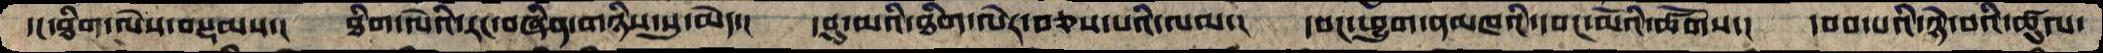དང་ཐིག་ལེས་བསྡམས་།   ཐིག་ལེའི་རང་བཞིན་གཉིས་སུ་མེད་།   དབུ་མའི་ཐིག་ལེར་བཅས་པའི་ལམ་།   དབང་ཕྱུག་ནམཁའི་དབང་མོའི་ཚོགས་།   དབབ་པའི་ཉེ་བའི་ཚུལ་
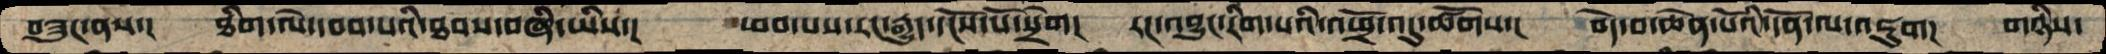བཟུང་ནས་།  ཐིག་ལེ་དབབ་པའི་ཐབས་བཞི་ཡིས་།   ཕབ་པས་རང་རྒྱུད་དངོས་པོ་སྲེག།   རང་འབྱུང་རིག་པའི་འཕྲོ་འདུ་ཚོགས་།   བདེ་བ་ཆེན་པོའི་དོན་ལ་འཇུག།   གཉིས་
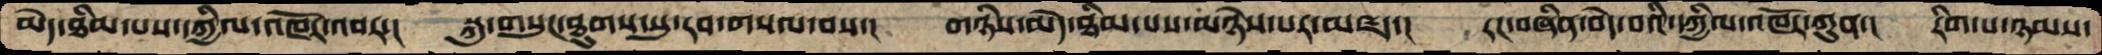མེད་ཐིམ་པས་དཀྱིལ་འཁོར་འབར་།  སྐུ་གསུང་ཐུགས་སུ་རབ་གསལ་བས་།  གཉིས་མེད་ཐིམ་པས་མཉེས་པར་མཛད་།  རང་བཞིན་མེད་པའི་དཀྱིལ་འཁོར་ཀུན་།  རིག་པ་ཉམས་
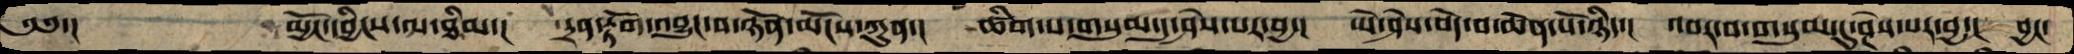༄༅་།      མྱོང་དབྱིངས་ལ་ཐིམ་།  དྲན་རྟོག་འབྱུང་བ་ཉོན་མོངས་ཀུན་།  ཚིག་པ་གསུམ་དུ་ཤེས་པར་བྱ་།  ཡེ་ཤེས་བདེ་བ་ཆེན་པོ་ཉིད་།  འབར་བ་གསུམ་དུ་ཤེས་པར་བྱ་།  བྱང་
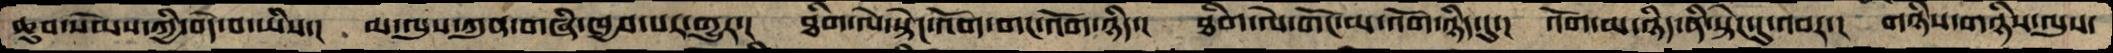ཆུབ་སེམས་ཀྱི་བདེ་བ་ཡིས་།  མ་ལུས་ཀུན་གཞི་ཁྱབ་པར་གྱུར་།  ཐིག་ལེ་སྟེང་འོག་གང་འོག་ཉིད་།  ཐིག་ལེ་གོང་མ་འོག་ཉིད་དུ་།  འོག་མ་ཉིད་ནི་སྟེང་དུ་འབར་།  གཉིས་གཉིས་ལུས་
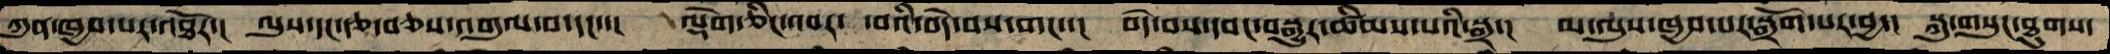ཀུན་ཁྱབ་པར་འཐོར་།  ལུས་དང་རྩ་བཅས་འགུལ་བ་དང་་།  ལྡེག་ཅིང་འབར་ བའི་བདེ་བས་གང་་།  བདེ་བས་དབང་བསྒྱུར་ཚིམས་པའི་སྒྲ་།  མ་ལུས་ཁྱབ་པར་སྒྲོག་པར་བྱ་།  སྐུ་གསུང་ཐུགས་
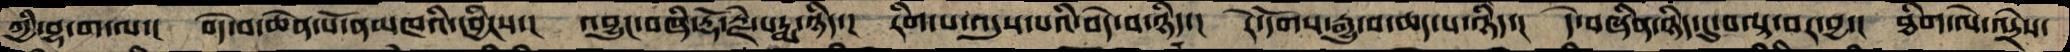ཀྱིབྷ་ག་ལ་།  བདེ་བ་ཆེན་པོ་ནམཁའི་དབྱིངས་།  འབྱུང་བཞི་རྡོ་རྗེ་པདྨ་ཉིད་། རིག་པ་འདུས་པའི་བདེ་བ་ཉིད་།  རེ་དོགས་རྒྱུ་བ་ཆད་པ་ཉིད་།  དེ་བཞིན་ཉིད་དུ་བལྟ་བར་བྱ་།  ཐིག་ལེ་འདྲེས་
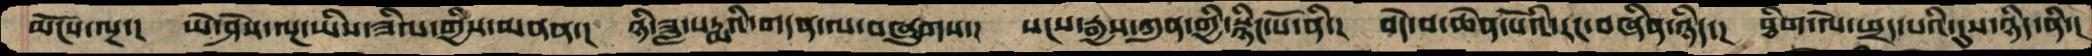མོངས་ལྔ་།  ཡེ་ཤེས་ལྔ་ཡིས་ཟིལ་གྱིས་མནན་།  ཉི་ཟླ་པདྨའི་གདན་ལ་བཞུགས་།  སངས་རྒྱས་ཀུན་གྱི་སྙིང་པོ་ནི་།   བདེ་བ་ཆེན་པོའི་རང་བཞིན་ཉིད་།  ཐིག་ལེ་ཕྲད་པའི་དུས་ཉིད་ནི་།
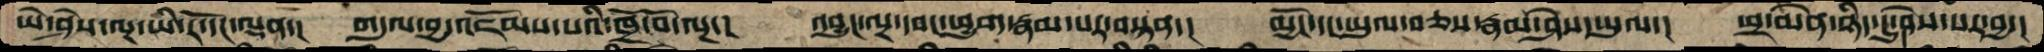ཡེ་ཤེས་ལྔ་ཡི་རོ་དང་ལྡན་།  གདུལ་བྱ་འཇོམས་པའི་ཁྲོ་བོ་ལྔ་།   འབྱུང་ལྔ་དབང་ཕྱུག་རྣམ་པར་བསྟན་།   མྱོང་དང་ཡུལ་བཅས་རྣམ་ཤེས་ཡུལ་།   ཕྲ་མེན་ཉིད་དུ་ཤེས་པར་བྱ་།
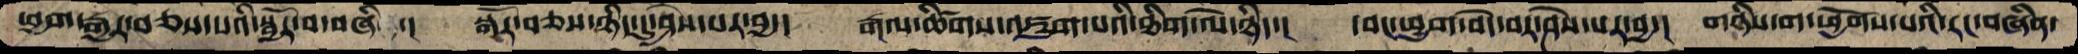ཕྱག་རྒྱར་བཅས་པའི་སྦྱོར་བ་བཞི ་།    སྒོར་བཅས་ཉིད་དུ་ཤེས་པར་བྱ་།   རྒལ་ཚིགས་འཇུག་པའི་ཐིག་ལེ་ཉིད་།  དབང་ཕྱུག་བདེ་བར་ཤེས་པར་བྱ་།  གཉིས་ག་ཕྱོགས་པའི་རང་བཞིན་
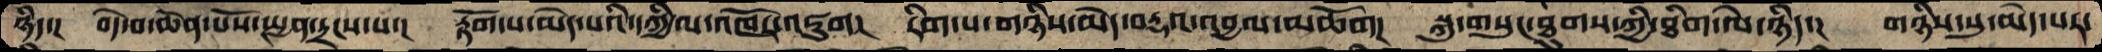ཉིད་།   བདེ་བ་ཆེན་པོས་སྤྱན་དྲངས་པ་།  རྟོག་པ་མེད་པའི་དཀྱིལ་འཁོར་འཇུག།  རིག་པ་གཉིས་མེད་བརྡའ་འབྱལ་མཆོག།  སྐུ་གསུང་ཐུགས་ཀྱི་ཐིག་ལེ་ཉིད་།  གཉིས་སུ་མེད་པར་
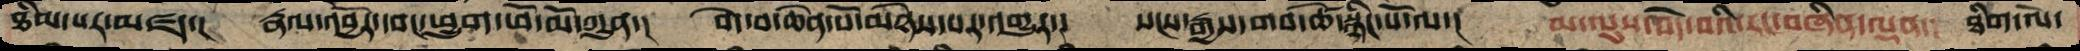ཐིམ་པར་མཛད་།   རྣལ་འབྱོར་དབང་ཕྱུག་ཕོ་མོ་ཀུན་།  བདེ་བ་ཆེན་པོ་མཉེས་པར་འགྱུར་།  སངས་རྒྱས་གབ་ཚེ་སྙིང་པོ་ལ་།  མ་ལུས་བདེ་བའི་རང་བཞིན་ལྡན་།  ཐིག་ལེ་
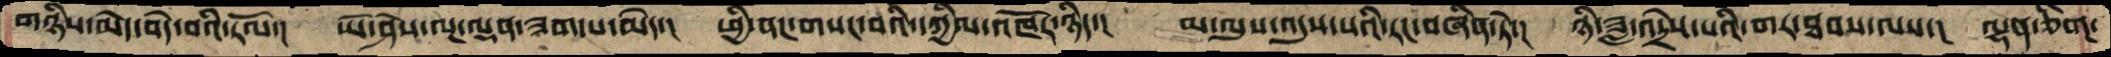གཉིས་མེད་བདེ་བའི་རོལ་།  ཡེ་ཤེས་ལྔ་ལྡན་ཟག་པ་མེད་།   ཕྱི་ནང་གསང་བའི་དཀྱིལ་འཁོར་ཉིད་།  མ་ལུས་འདུས་པའི་རང་བཞིན་ཏེ་།  ཉི་ཟླ་འདྲེས་པའི་གར་ཐབས་ལས་།  ལྷན་ཅིག་
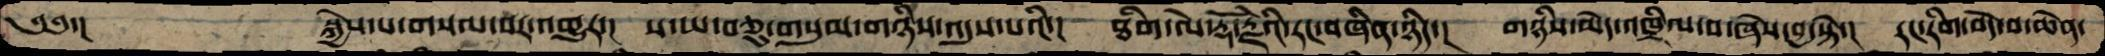༄༅་།    སྐྱེས་པ་གསལ་བར་འགྱུར་།  ས་ཡ་བཅུ་གསུམ་གཉིས་འདུས་པའི་།  ཐིག་ལེ་རྡོ་རྗེའི་རང་བཞིན་ཉིད་།  གཉིས་མེད་འཁྲིལ་བ་ཞེས་བྱ་སྟེ་།  རང་རིག་བདེ་བ་ཆེན་
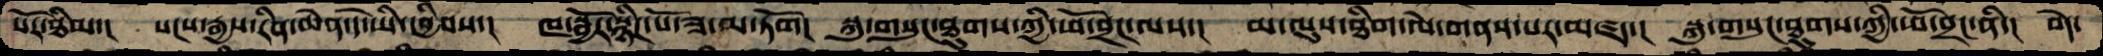པོར་ཐིམ་།  སངས་རྒྱས་རིན་ཆེན་དེ་ཡི་དབྱིབས་།  ཁ་སྦྱོར་སྙིང་པོ་ཟ་མ་ཏོག།   སྐུ་གསུང་ཐུགས་ཀྱི་ཕོ་བྲང་ལས་།  མ་ལུས་ཐིག་ལེ་གནས་པར་མཛད་།  སྐུ་གསུང་ཐུགས་ཀྱི་ཕོ་བྲང་ནི་།  བདེ་
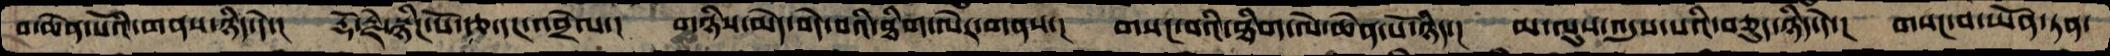བ་ཆེན་པོའི་གནས་ཉིད་དེ་།  རྡོ་རྗེ་སྙིང་པོ་རྩ་དང་འབྲེལ་།  གཉིས་མེད་བདེ་བའི་ཐིག་ལེར་གནས་།  གསང་བའི་ཐིག་ལེ་ཆེན་པོ་ཉིད་།  མ་ལུས་འདུས་པའི་བཅུད་ཉིད་དེ་།  གསང་བ་ཡོན་ཏན་
